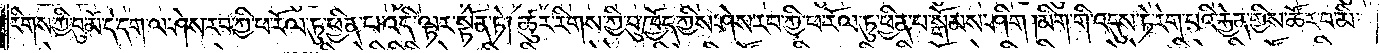རིགས་ཀྱི་བུ་མོ་དེ་དག་ལ་ཤེས་རབ་ཀྱི་ཕ་རོལ་ཏུ་ཕྱིན་པ་འདི་ལྟར་སྟོན་ཏེ། ཚུར་རིགས་ཀྱི་བུ་ཁྱོད་ཀྱིས་ཤེས་རབ་ཀྱི་ཕ་རོལ་ཏུ་ཕྱིན་པ་སྒོམས་ཤིག། མིག་གི་འདུས་ཏེ་རེག་པའི་རྐྱེན་གྱིས་ཚོར་བ་མི་
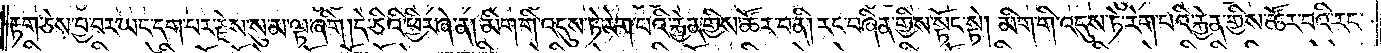རྟག་ཅེས་བྱ་བར་ཡང་དག་པར་རྗེས་སུ་མ་ལྟ་ཞིག །དེ་ཅིའི་ཕྱིར་ཞེ་ན། མིག་གི་འདུས་ཏེ་རེག་པའི་རྐྱེན་གྱིས་ཚོར་བ་ནི། རང་བཞིན་གྱིས་སྟོང་སྟེ། མིག་གི་འདུས་ཏེ་རེག་པའི་རྐྱེན་གྱིས་ཚོར་བའི་རང་
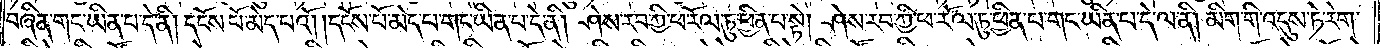བཞིན་གང་ཡིན་པ་དེ་ནི། དངོས་པོ་མེད་པའོ། །དངོས་པོ་མེད་པ་གང་ཡིན་པ་དེ་ནི། ཤེས་རབ་ཀྱི་ཕ་རོལ་ཏུ་ཕྱིན་པ་སྟེ། ཤེས་རབ་ཀྱི་ཕ་རོལ་ཏུ་ཕྱིན་པ་གང་ཡིན་པ་དེ་ལ་ནི། མིག་གི་འདུས་ཏེ་རེག་
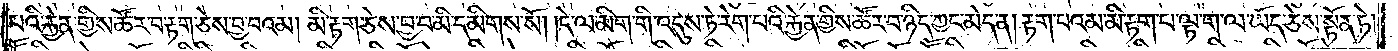པའི་རྐྱེན་གྱིས་ཚོར་བ་རྟག་ཅེས་བྱ་བའམ། མི་རྟག་ཅེས་བྱ་བ་མི་དམིགས་སོ། །དེ་ལ་མིག་གི་འདུས་ཏེ་རེག་པའི་རྐྱེན་གྱིས་ཚོར་བ་ཉིད་ཀྱང་མེད་ན། རྟག་པའམ་མི་རྟག་པ་ལྟ་ག་ལ་ཡོད་ཅེས་སྟོན་ཏེ།
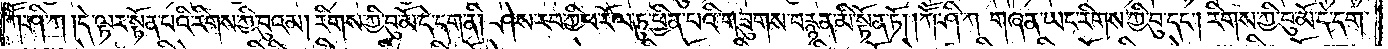ཀཽ་ཤི་ཀ། དེ་ལྟར་སྟོན་པའི་རིགས་ཀྱི་བུའམ། རིགས་ཀྱི་བུ་མོ་དེ་དག་ནི། ཤེས་རབ་ཀྱི་ཕ་རོལ་ཏུ་ཕྱིན་པའི་གཟུགས་བརྙན་མི་སྟོན་ཏོ། །ཀཽ་ཤི་ཀ། གཞན་ཡང་རིགས་ཀྱི་བུ་དང༌། རིགས་ཀྱི་བུ་མོ་དེ་དག་
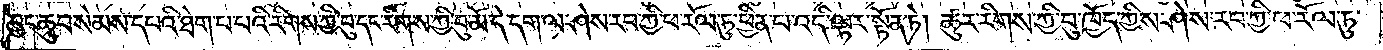བྱང་ཆུབ་སེམས་དཔའི་ཐེག་པ་པའི་རིགས་ཀྱི་བུ་དང་རིགས་ཀྱི་བུ་མོ་དེ་དག་ལ་ཤེས་རབ་ཀྱི་ཕ་རོལ་ཏུ་ཕྱིན་པ་འདི་ལྟར་སྟོན་ཏེ། ཚུར་རིགས་ཀྱི་བུ་ཁྱོད་ཀྱིས་ཤེས་རབ་ཀྱི་ཕ་རོལ་ཏུ་
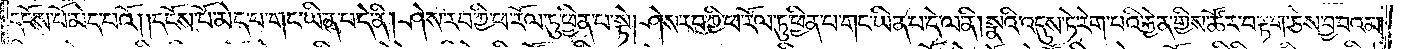དངོས་པོ་མེད་པའོ། །དངོས་པོ་མེད་པ་གང་ཡིན་པ་དེ་ནི། ཤེས་རབ་ཀྱི་ཕ་རོལ་ཏུ་ཕྱིན་པ་སྟེ། ཤེས་རབ་ཀྱི་ཕ་རོལ་ཏུ་ཕྱིན་པ་གང་ཡིན་པ་དེ་ལ་ནི། སྣའི་འདུས་ཏེ་རེག་པའི་རྐྱེན་གྱིས་ཚོར་བ་རྟག་ཅེས་བྱ་བའམ།
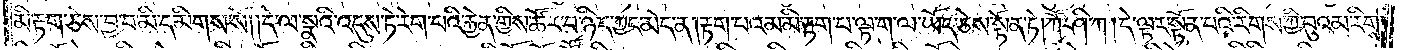མི་རྟག་ཅེས་བྱ་བ་མི་དམིགས་སོ། །དེ་ལ་སྣའི་འདུས་ཏེ་རེག་པའི་རྐྱེན་གྱིས་ཚོར་བ་ཉིད་ཀྱང་མེད་ན། རྟག་པའམ་མི་རྟག་པ་ལྟ་ག་ལ་ཡོད་ཅེས་སྟོན་ཏེ། ཀཽ་ཤི་ཀ། དེ་ལྟར་སྟོན་པའི་རིགས་ཀྱི་བུའམ་རིགས་
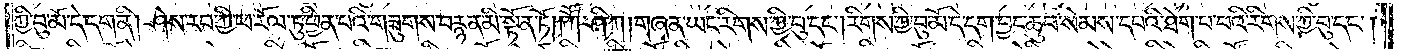ཀྱི་བུ་མོ་དེ་དག་ནི། ཤེས་རབ་ཀྱི་ཕ་རོལ་ཏུ་ཕྱིན་པའི་གཟུགས་བརྙན་མི་སྟོན་ཏོ། །ཀཽ་ཤི་ཀ། གཞན་ཡང་རིགས་ཀྱི་བུ་དང༌། རིགས་ཀྱི་བུ་མོ་དེ་དག་བྱང་ཆུབ་སེམས་དཔའི་ཐེག་པ་པའི་རིགས་ཀྱི་བུ་དང༌།
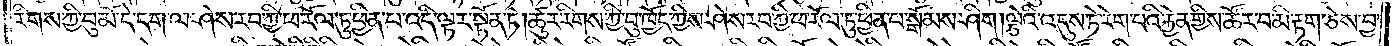རིགས་ཀྱི་བུ་མོ་དེ་དག་ལ་ཤེས་རབ་ཀྱི་ཕ་རོལ་ཏུ་ཕྱིན་པ་འདི་ལྟར་སྟོན་ཏེ། ཚུར་རིགས་ཀྱི་བུ་ཁྱོད་ཀྱིས་ཤེས་རབ་ཀྱི་ཕ་རོལ་ཏུ་ཕྱིན་པ་སྒོམས་ཤིག། །ལྕེའི་འདུས་ཏེ་རེག་པའི་རྐྱེན་གྱིས་ཚོར་བ་མི་རྟག་ཅེས་བྱ་
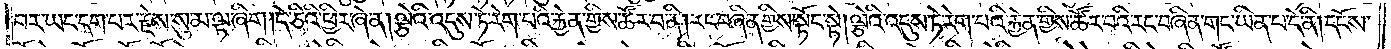བར་ཡང་དག་པར་རྗེས་སུ་མ་ལྟ་ཞིག །དེ་ཅིའི་ཕྱིར་ཞེ་ན། ལྕེའི་འདུས་ཏེ་རེག་པའི་རྐྱེན་གྱིས་ཚོར་བ་ནི། རང་བཞིན་གྱིས་སྟོང་སྟེ། ལྕེའི་འདུས་ཏེ་རེག་པའི་རྐྱེན་གྱིས་ཚོར་བའི་རང་བཞིན་གང་ཡིན་པ་དེ་ནི། དངོས་
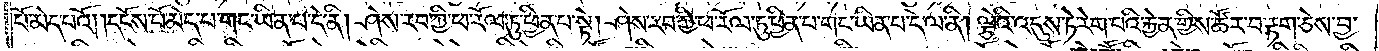པོ་མེད་པའོ། །དངོས་པོ་མེད་པ་གང་ཡིན་པ་དེ་ནི། ཤེས་རབ་ཀྱི་ཕ་རོལ་ཏུ་ཕྱིན་པ་སྟེ། ཤེས་རབ་ཀྱི་ཕ་རོལ་ཏུ་ཕྱིན་པ་གང་ཡིན་པ་དེ་ལ་ནི། ལྕེའི་འདུས་ཏེ་རེག་པའི་རྐྱེན་གྱིས་ཚོར་བ་རྟག་ཅེས་བྱ་
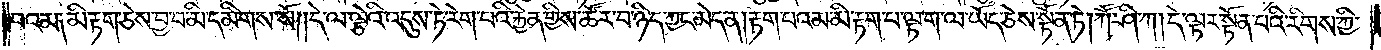བའམ༑ མི་རྟག་ཅེས་བྱ་བ་མི་དམིགས་སོ། །དེ་ལ་ལྕེའི་འདུས་ཏེ་རེག་པའི་རྐྱེན་གྱིས་ཚོར་བ་ཉིད་ཀྱང་མེད་ན། རྟག་པའམ་མི་རྟག་པ་ལྟ་ག་ལ་ཡོད་ཅེས་སྟོན་ཏེ། ཀཽ་ཤི་ཀ། དེ་ལྟར་སྟོན་པའི་རིགས་ཀྱི་
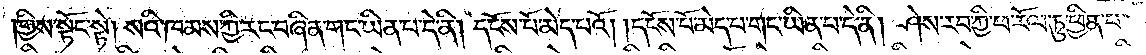གྱིས་སྟོང་སྟེ། སའི་ཁམས་ཀྱི་རང་བཞིན་གང་ཡིན་པ་དེ་ནི། དངོས་པོ་མེད་པའོ། །དངོས་པོ་མེད་པ་གང་ཡིན་པ་དེ་ནི། ཤེས་རབ་ཀྱི་ཕ་རོལ་ཏུ་ཕྱིན་པ་
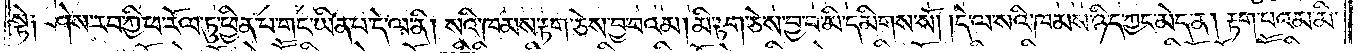སྟེ༑ ཤེས་རབ་ཀྱི་ཕ་རོལ་ཏུ་ཕྱིན་པ་གང་ཡིན་པ་དེ་ལ་ནི། སའི་ཁམས་རྟག་ཅེས་བྱ་བའམ། མི་རྟག་ཅེས་བྱ་བ་མི་དམིགས་སོ། །དེ་ལ་སའི་ཁམས་ཉིད་ཀྱང་མེད་ན། རྟག་པའམ་མི་
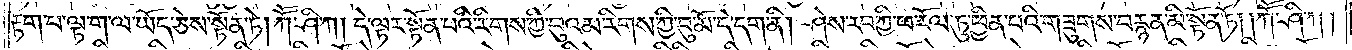རྟག་པ་ལྟ་ག་ལ་ཡོད་ཅེས་སྟོན་ཏེ། ཀཽ་ཤི་ཀ། དེ་ལྟར་སྟོན་པའི་རིགས་ཀྱི་བུའམ་རིགས་ཀྱི་བུ་མོ་དེ་དག་ནི། ཤེས་རབ་ཀྱི་ཕ་རོལ་ཏུ་ཕྱིན་པའི་གཟུགས་བརྙན་མི་སྟོན་ཏོ། །ཀཽ་ཤི་ཀ།
